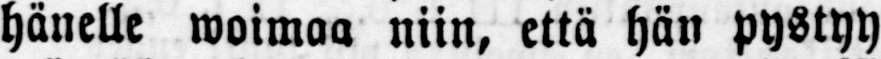hänelle woimaa niin, että hän pystyy
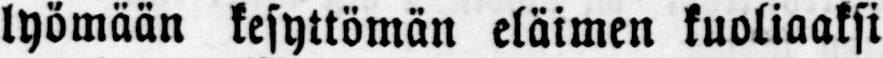lyömään kesyttömän eläimen kuoliaaksi
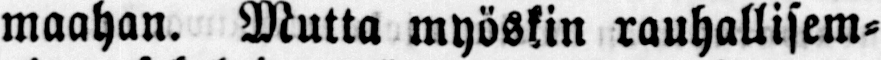maahan. Mutta myöskin rauhallisem-
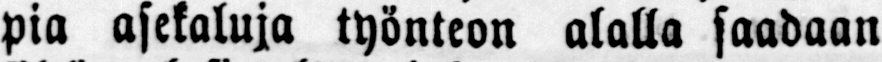pia asekaluja työnteon alalla saadaan
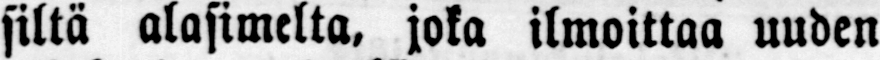siltä alasimelta, joka ilmoittaa uuden
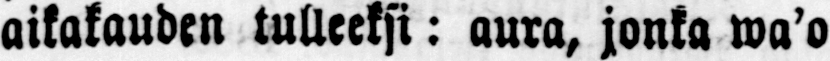aikakauden tulleeksi: aura, jonka wa'o
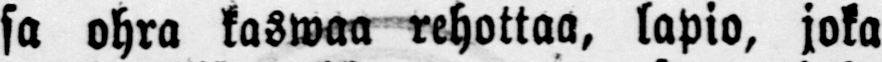sa ohra kaswaa rehottaa, lapio, joka
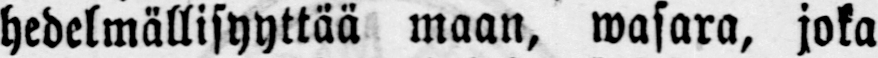hedelmällisyyttää maan, wasara, joka
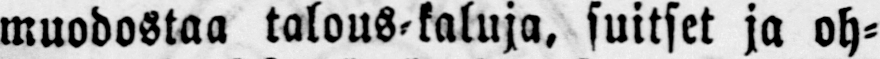muodostaa talous-kaluja, suitset ja oh-
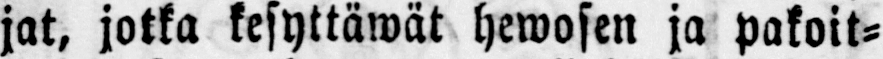jat, jotka kesyttäwät hewosen ja pakoit-
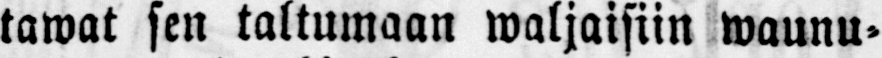tawat sen taltumaan waljaisiin waunu-
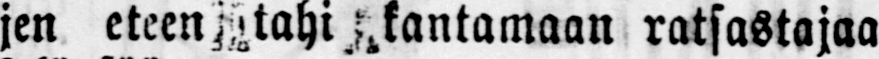jen eteen tahi kantamaan ratsastajaa
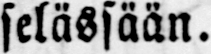selässään.
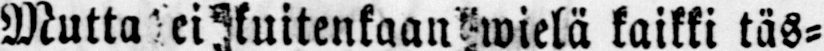Mutta ei kuitenkaan wielä kaikki täs-
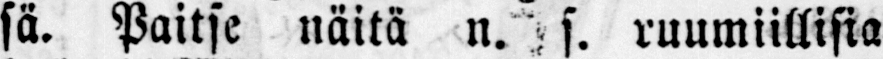sä. Paitse näitä n. s. ruumiillisia
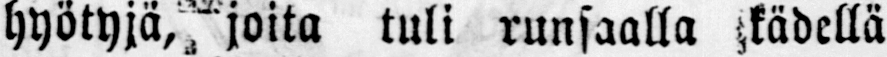hyötyjä, joita tuli runsaalla Kädellä
